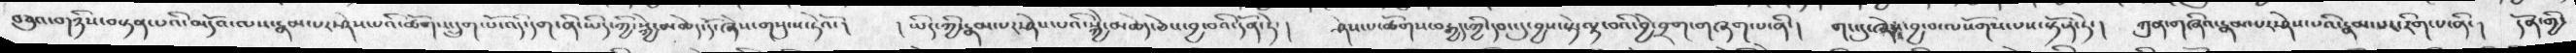བཅུའ་གཉིས་བསྟན་པའི་མདོའ་ལས་རྣམ་པར་ཤེས་པའི་ཚོགས་དྲུག་པོ་འདི་དག་ནི་ཡིད་ཀྱི་སྐྱེ་མཆེད་དོ་ཞེས་གསུངས་ཏེའོ་།      ཡིད་ཀྱི་རྣམ་པར་ཤེས་པའི་སྐྱེ་མཆེད་ཅེས་བྱ་བའི་དོན་ཏེ་།   ཤེས་པ་ཚོགས་བརྒྱད་ཀྱི་དབང་དུ་བྱས་སྟེ་ལྟ་བའི་བྱེ་བྲག་གཞག་པ་ནི་།   གང་དུ་ཞེས་བྱ་བ་ལསོགས་པས་སྟོན་ཏེ་།   ཀུན་གཞིའ་རྣམ་པར་ཤེས་པའི་རྣམ་པར་རིག་པ་ནི་།   དོན་གྱི་
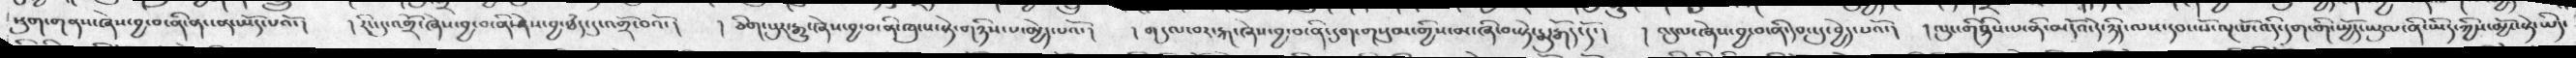སུག་གནས་ཞེས་བྱ་བ་ནི་ནང་ན་ཡོད་པའོ་།  ། རིང་དུ་འགྲོ་ཞེས་བྱ་བ་ནི་ཤེས་བྱ་ཐཾད་དུ་འགྲོ་བའོ་།   ། ཅིག་པུར་རྒྱུ་ཞེས་བྱ་བ་ནི་ཁུངས་སྟེ་གཉིས་པ་མྱེད་པའོ་།  ། གདུལ་བར་རྐང་ཞེས་བྱ་བ་ནི་དུག་གསུམ་གྱིས་མ་ཞི་བ་སྟེ་རྨུ་རྒོད་དོ་།   ། འདུལ་ཞེས་བྱ་བ་ནི་དབང་དུ་བྱེད་པའོ་།   ། ལུང་གིཉིས་པ་ནི་མདོའ་དེ་ཉིད་ལས་དབང་པོ་ལྔ་པོ་འདི་དག་གི་སྤྱོད་ཡུལ་ནི་ཡིད་ཀྱིས་མྱོང་སྟེ་ཡིད་
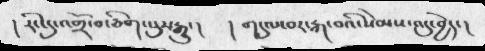། རིང་དུ་འགྲོ་བ་ཅིག་པུར་རྒྱུ་།   ། གདུལ་བར་རྐ་བའི་སེམས་འདུ་བྱེད་།
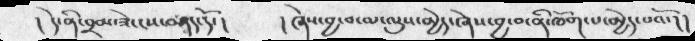། དེ་ནི་བྲམ་ཟེ་ངས་བཤད་དོ་།   ། ཞེས་བྱ་བ་མ་ལུས་མྱེད་ཞེས་བྱ་བ་ནི་ཁོག་པ་མྱེད་པའོ་།།
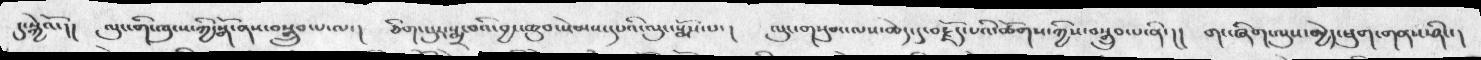དུ་སྐྱེའོ་།།  ལུང་གི་ཁུངས་ཀྱི་སྒོ་ནས་བསྒྲུབ་པ་ལ་།  ཅིག་པུར་སྨྲ་བའི་བྱང་ཆུབ་སེམས་དཔའི་ལུང་སྨོས་པ་།   ལུང་གསུམ་ལས་ཆེད་དུ་བརྗོད་པའི་ཚོགས་ཀྱིས་བསྒྲུབ་པ་ནི་།།  གང་ཞིག་ལུས་མྱེད་ཕུག་གནས་ཤིང་།
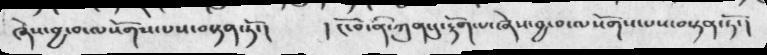ཞེས་བྱ་བ་ལསོགས་པས་བསྟན་ཏོ་།  ། ངོ་བོ་ནི་ཀུན་དུ་རྟོག་པ་ཞེས་བྱ་བ་ལསོགས་པས་བསྟན་ཏོ་།
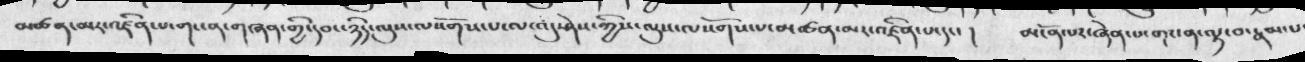མཚན་མར་འཛིན་པ་གང་ན་གཞན་གྱི་དབང་ཉིད་ལུས་ལསོགས་པ་ལ་འདུ་ཤེས་ཀྱིས་ལུས་ལསོགས་པ་མཚན་མར་འཛིན་པ་དང་།   མངོན་པར་ཞེན་པ་གར་ན་ལྟ་བ་རྣམ་པ་
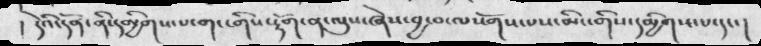།  དེའི་དོན་ནི་དམྱིགས་པ་གང་གིས་རྟོག་ན་ལུས་ཞེས་བྱ་བ་ལསོགས་པས་མིང་གིས་དམྱིགས་པ་དང་།
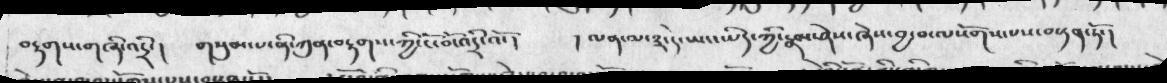བརྟགས་བཞི་འདྲི་།  གསུམ་པ་ནི་ཀུན་བརྟགས་ཀྱི་ངོ་བོ་འདྲི་འོ་།   ། ལན་ལ་༣་དེ་ཡང་ཡིད་ཀྱི་རྣམ་ཤེས་ཞེས་བྱ་བ་ལསོགས་པས་བསྟན་ཏོ་།
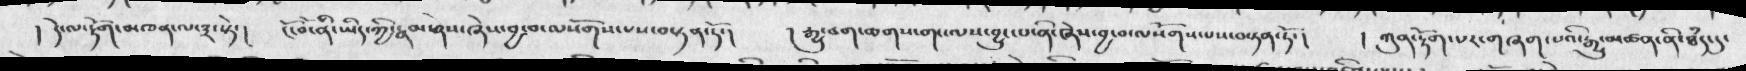། དེ་ལ་རྟོག་མཁན་ལ་༣་སྟེ་།  ངོ་བོ་ནི་ཡིད་ཀྱི་རྣམ་ཤེས་ཞེས་བྱ་བ་ལསོགས་པས་བསྟན་ཏོ་།  །  ། རྒྱུ་བག་ཆགས་གང་ལས་བྱུང་པ་ནི་ཞེས་བྱ་བ་ལསོགས་པས་བསྟན་ཏོ་།   ། ཀུན་རྟོག་པར་གཞག་པའི་རྒྱུ་མཚ་ནི་ཐཾད་དུ་
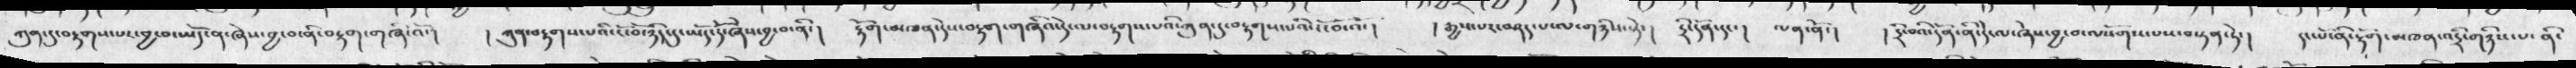ཀུན་དུ་བརྟགས་པར་བྱ་བ་ཡོད་ན་ཞེས་བྱ་བ་ནི་བརྟག་གཞི་འོ་།  ། ཀུན་བརྟགས་པའི་ངོ་བོ་ཉིད་དུ་ཡོད་དོ་ཞེས་བྱ་བ་ནི་།  རྟོག་མཁན་དེས་བརྟག་གཞིའ་དེ་ལ་བརྟགས་པའི་ཀུན་དུ་བརྟགས་པའི་ངོ་བོ་འོ་།   །  རྒྱས་པར་བཤད་པ་ལ་གཉིས་ཏེ་།  དྲི་དོན་དང་།  ལན་ནོ་།  ། དྲི་བའི་དོན་ནི་དེ་ལ་ཞེས་བྱ་བ་ལསོགས་པས་བསྟན་ཏེ་།  དང་པོ་ནི་རྟོག་མཁན་འདྲི་གཉིས་པ་ནི་
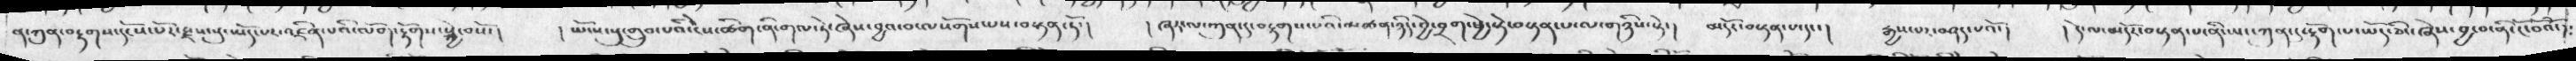ན་ཀུན་བརྟགས་དངོས་པོར་རྫས་སུ་ཡོད་པར་འཛིན་པའི་ལོག་རྟོགས་སྐྱེ་བསོ་།  ། ཡོངས་སུ་གྲུབ་པའི་ངེས་ཚིག་ནི་གལ་ཏེ་ཞེས་བྱའ་བ་ལསོགས་པས་བསྟན་ཏོ་།   ཞར་ལ་ཀུན་དུ་བརྟགས་པའི་མཚན་ཉིད་བྱེ་བྲག་ཕྱེ་སྟེ་བསྟན་པ་ལ་གཉིས་སྟེ་།  མདོར་བསྟན་པ་དང་།  རྒྱས་པར་བཤད་པའོ་།  ། དེ་ལ་མདོར་བསྟན་པ་ནི་ཡང་ཀུན་དུ་རྟོག་པ་ཡོད་ཅིང་ཞེས་བྱ་བ་ནི་ངོ་བོའོ་
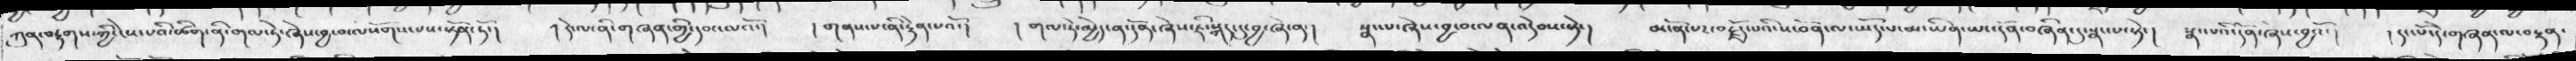ཀུན་བརྟགས་ཀྱི་ངེས་པའི་ཚིག་ནི་གལ་ཏེ་ཞེས་བྱ་བ་ལསོགས་པས་སྟོན་ཏོ་།   ། དེ་ལ་ནི་གཞན་གྱི་དབང་ལའོ་།   ། གནས་པ་ནི་རྟེན་པའོ་།   །  གལ་ཏེ་མྱེད་ན་དོན་ཞེས་ཇི་སྐད་དུ་་བྱ་ཞེ་ན་།  སྣང་པ་ཞེས་བྱ་བ་ལན་འདེབས་སྟེ་།  མངོན་པར་བརྗོད་པའི་ས་བོན་ལ་ཡོད་པ་མ་ཡིན་ཡང་དོན་བཞིན་དུ་སྣང་པ་སྟེ་།  སྣང་པའི་དོན་ཞེས་བྱའོ་།  ། དང་པོ་དེ་བཞན་ལ་བརྟན་
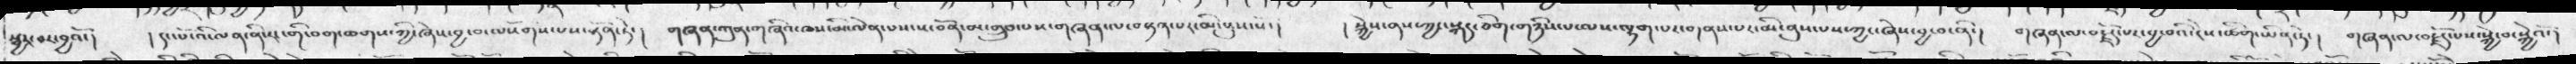སྦྱར་བར་བྱའོ་།  ། དང་པོ་འི་ལན་ནི་རང་གི་བག་ཆགས་ཀྱི་ཞེས་བྱ་བ་ལསོགས་པས་སྟོན་ཏེ་།  གཞན་ཀུན་གཞིའ་ཁས་མི་ལེན་པས་ས་བོན་མ་གྲུབ་པས་གཞན་ལ་བསྟན་པར་མི་ནུས་སོ་།  ། སྐྱེས་ནས་ཀྱང་སྐད་ཅིག་གཉིས་པ་ལས་ལྷག་པར་གནས་པར་མི་ནུས་པས་ཀྱང་ཞེས་བྱ་བ་ནི་།   གཞན་ལ་བརྗོད་པར་བྱ་བའི་ངེས་ཚིག་ཡིན་ཏེ་།  གཞན་ལ་བརྗོད་པས་སྐྱེ་བ་སྐྱེའོ་།
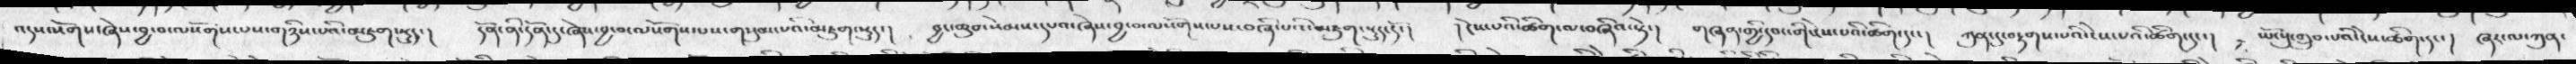འདས་སོགས་ཞེས་བྱ་བ་ལསོགས་པས་གཉིས་པའི་མཇུག་སྡུད་།  དོན་ནི་དོན་དུ་ཞེས་བྱ་བ་ལསོགས་པས་གསུམ་པའི་མཇུག་སྡུད་།   བྱང་ཆུབ་སེམས་དཔའ་ཞེས་བྱ་བ་ལསོགས་པས་བཞི་པའི་མཇུག་སྡུད་དོ་།  ། ངེས་པའི་ཚིག་ལ་བཞིའ་སྟེ་།   གཞན་གྱི་དབང་གི་ངེས་པའི་ཚིག་དང་།     ཀུན་དུ་བརྟགས་པའི་ངེས་པའི་ཚིག་དུང་།   ཡོངསུ་གྲུབ་པའི་ངེས་ཚིག་དང་།  ཞར་ལ་ཀུན་
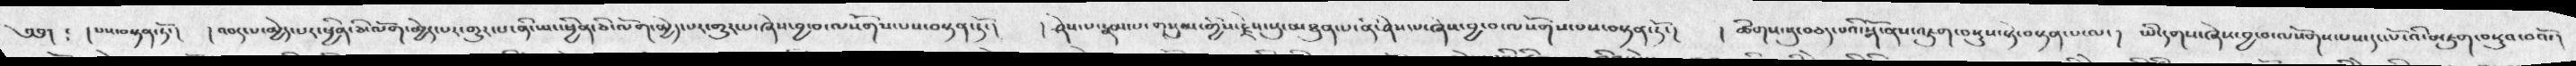༄༅། ༴  །པས་བསྟན་ཏོ་།  ། འབར་པ་མྱེད་པར་ཕྱིན་ཅི་ལོག་མྱེད་པར་གྱུར་པ་ནི་ཡང་ཕྱིན་ཅི་ལོག་མྱེད་པར་གྱུར་པ་ཞེས་བྱ་བ་ལསོགས་པས་བསྟན་ཏོ་།   ། ཤེས་པ་རྣམ་པ་གསུམ་གྱིས་རྗེས་སུ་མཐུན་པ་ནི་ཤེས་པ་ཞེས་བྱ་བ་ལསོགས་པས་བསྟན་ཏོ་།   ། ཚིགས་སུ་བཅད་པའི་སྒོ་ནས་འཇུག་བསྡུས་སྟེ་བསྟན་པ་ལ་།  ཡི་དགས་ཞེས་བྱ་བ་ལསོགས་པས་དང་པོ་འི་མཇུག་བསྡུའ་བའོ་།
